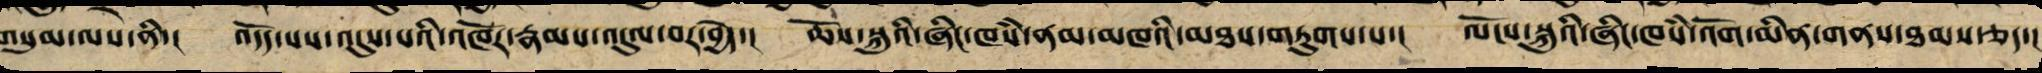གསུམ་ལས་ནི་། འདོད་པས་འདུས་པའི་འཁོར་རྣམས་འདུལ་བར་བྱེད་། ཆོས་སྐུའི་ཞིང་ཁམས་ནམ་མཁའི་མཐས་གཏུགས་པ་། ལོངས་སྐུའི་ཞིང་ཁཾས་འོག་མིན་གནས་ཐམས་ཅད་།
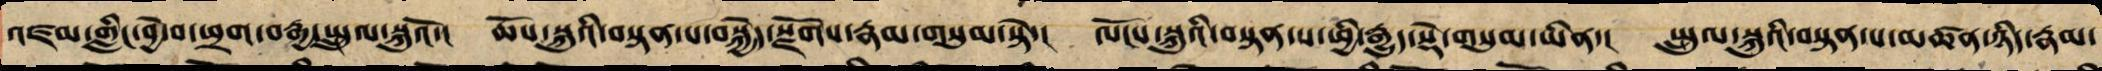འཛམ་གླིང་བྱེ་བ་ཕྲག་བརྒྱར་སྤྲུལ་སྐུའོ་། ཆོས་སྐུའི་བསྟན་པ་བསྐྱེད་སྫོགས་རྣམ་གསུམ་སྟེ་། ལོངས་སྐུའི་བསྟན་པ་ཕྱི་རྒྱུད་སྡེ་གསུམ་ཡིན་། སྤྲུལ་སྐུའི་བསྟན་པ་མཚན་ཉིད་རྣམ་
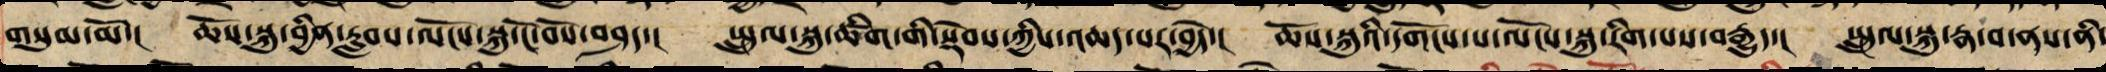གསུམ་མོ་། ཆོས་སྐུ་བྱིན་རླབས་ལོངས་སྐུ་ངོ་བོས་བཤད་། སྤྲུལ་སྐུ་ཚིག་གི་སྡེབས་ཀྱིས་འཆད་པར་བྱེད་། ཆོས་སྐུའི་དགོངས་པ་ལོངས་སྐུ་རིག་པས་བརྒྱུད་། སྤྲུལ་སྐུས་རྣ་བ་ནས་ནི་
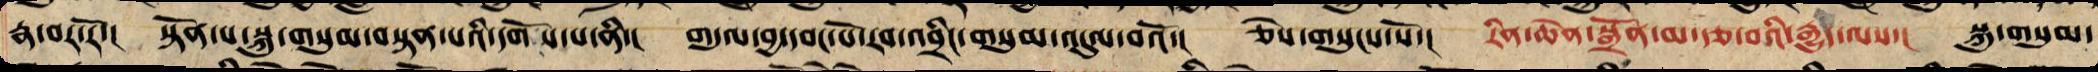རྣ་བར་རོ་། སྟོན་པ་སྐུ་གསུམ་བསྟན་པའི་དགོས་པ་ནི་། གདུལ་བྱ་དབང་པོ་རབ་འབྲིང་གསུམ་འདུལ་བའོ་། ཅེས་གསུངས་སོ་། རིན་ཆེན་སྒྲོན་མ་རྩ་བའི་རྒྱུད་ལས་། སྐུ་གསུམ་
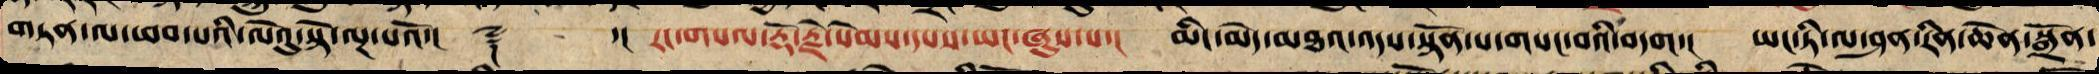གཏན་ལ་འབེབས་པའི་ལེའུ་སྟེ་ལྔ་པའོ་།། ༈ ་།། རང་གསལ་རྡོ་རྗེ་སེམས་དཔས་ཡང་ཞུས་པ་། མིང་མེད་མཐའ་འདས་སྟོན་པ་གསང་བའི་བདག། ཡང་ཏི་ལ་ཤན་རིན་ཆེན་སྒྲོན་
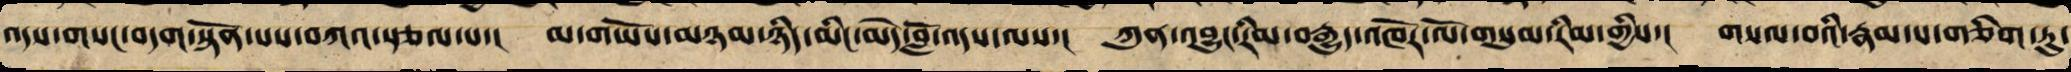འདས་གསང་བདག་སྟོན་པས་བཀའ་སྩལ་པ་། མ་གཡོས་མཉམ་ཉིད་མིང་མེད་བློ་འདས་ལས་། ཀུན་འབྱུང་རིམ་བརྒྱུད་འཁོར་ལོ་གསུམ་རིམ་གྱིས་། གསལ་བའི་རྣམ་པ་གཅིག་ཏུ་
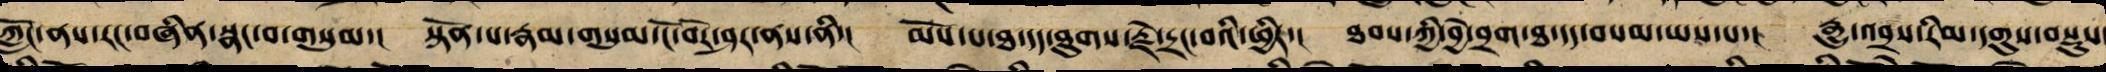ཀློང་ནས་རང་བཞིན་སྣང་བ་གསུམ་། སྟོན་པ་རྣམ་གསུམ་ངོ་བོར་ཤར་ནས་ནི་། མོས་པ་ཐ་དད་ཐུགས་རྗེས་དྲང་བའི་ཕྱིར་། ཐབས་ཀྱི་བྱེ་བྲག་ཐ་དད་བསམ་ཡས་པ་། རྒྱུ་འབྲས་རིམ་དགུས་བསྡུས་
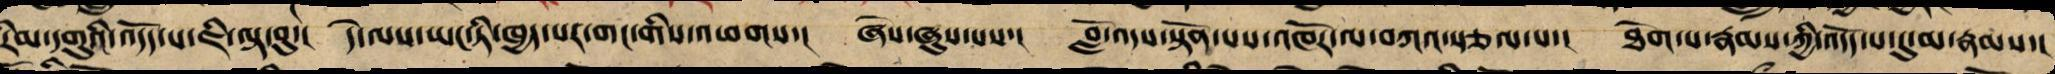རིམ་དགུའི་འདོད་པ་ཇི་ལྟ་བུ་། དེ་ལས་ཡང་ཏི་ཁྱད་པར་གང་གིས་འཕགས་། ཞེས་ཞུས་པས་། བློ་འདས་སྟོན་པས་འཁོར་ལ་བཀའ་སྩལ་པ་། ཐེག་པ་རྣམས་ཀྱི་འདོད་པ་དུ་མ་རྣམས་།
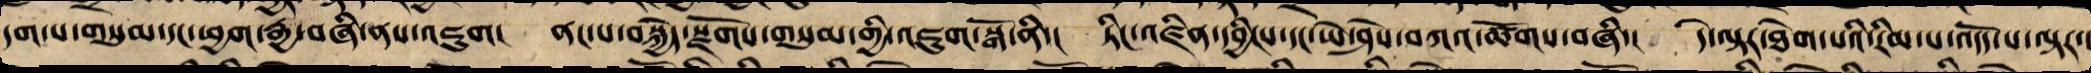དག་པ་གསུམ་དང་ཕྱག་རྒྱ་བཞི་ནས་འཇུག། ནང་པ་བསྐྱེད་སྫོགས་གསུམ་གྱི་འཇུག་སྒོ་ནི་། ཏིང་འཛིན་དབྱིངས་དང་ཡེ་ཤེས་བཀའ་ཚོགས་བཞི་། དེ་ལྟར་ཐེག་པའི་རིམ་པ་འདོད་པ་ལྟར་།
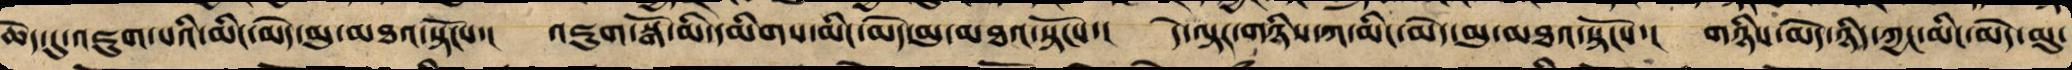ཆེད་དུ་འཇུག་པའི་མིང་མེད་མུ་མཐའ་སྟོངས་། འཇུག་སྒོ་མི་དམིགས་མིང་མེད་མུ་མཐའ་སྟོངས་། དེ་ལྟར་གཉིས་ཀ་མིང་མེད་མུ་མཐའ་སྟོངས་། གཉིས་མེད་ཉིད་ཀྱང་མིང་མེད་མུ་
